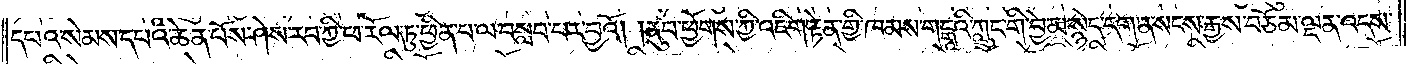དཔའ་སེམས་དཔའ་ཆེན་པོས་ཤེས་རབ་ཀྱི་ཕ་རོལ་ཏུ་ཕྱིན་པ་ལ་བསླབ་པར་བྱའོ། །ནུབ་ཕྱོགས་ཀྱི་འཇིག་རྟེན་གྱི་ཁམས་གངྒཱའི་ཀླུང་གི་བྱེ་མ་སྙེད་དག་ན་སངས་རྒྱས་བཅོམ་ལྡན་འདས་
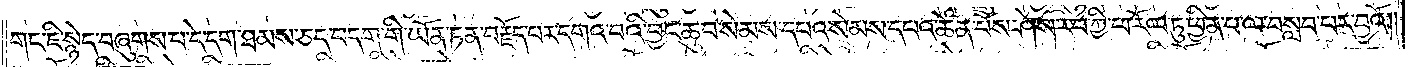གང་ཇི་སྙེད་བཞུགས་པ་དེ་དག་ཐམས་ཅད་བདག་གི་ཡོན་ཏན་བརྗོད་པར་དགའ་བའི་བྱང་ཆུབ་སེམས་དཔའ་སེམས་དཔའ་ཆེན་པོས་ཤེས་རབ་ཀྱི་ཕ་རོལ་ཏུ་ཕྱིན་པ་ལ་བསླབ་པར་བྱའོ། །
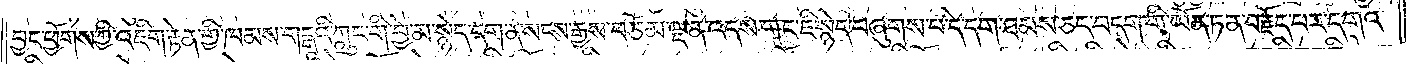བྱང་ཕྱོགས་ཀྱི་འཇིག་རྟེན་གྱི་ཁམས་གངྒཱའི་ཀླུང་གི་བྱེ་མ་སྙེད་དག་ན་སངས་རྒྱས་བཅོམ་ལྡན་འདས་གང་ཇི་སྙེད་བཞུགས་པ་དེ་དག་ཐམས་ཅད་བདག་གི་ཡོན་ཏན་བརྗོད་པར་དགའ་
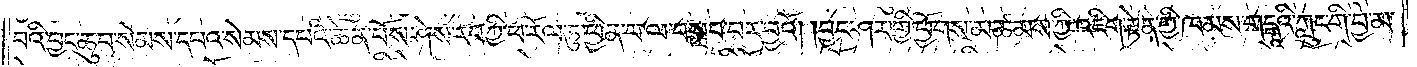བའི་བྱང་ཆུབ་སེམས་དཔའ་སེམས་དཔའ་ཆེན་པོས་ཤེས་རབ་ཀྱི་ཕ་རོལ་ཏུ་ཕྱིན་པ་ལ་བསླབ་པར་བྱའོ། །བྱང་ཤར་གྱི་ཕྱོགས་མཚམས་ཀྱི་འཇིག་རྟེན་གྱི་ཁམས་གངྒཱའི་ཀླུང་གི་བྱེ་མ་
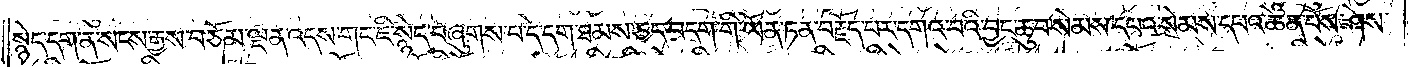སྙེད་དག་ན་སངས་རྒྱས་བཅོམ་ལྡན་འདས་གང་ཇི་སྙེད་བཞུགས་པ་དེ་དག་ཐམས་ཅད་བདག་གི་ཡོན་ཏན་བརྗོད་པར་དགའ་བའི་བྱང་ཆུབ་སེམས་དཔའ་སེམས་དཔའ་ཆེན་པོས་ཤེས་
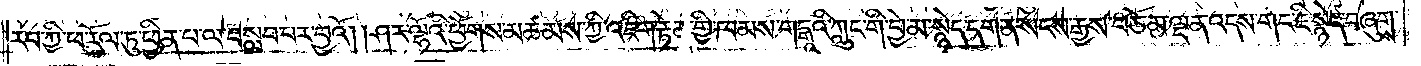རབ་ཀྱི་ཕ་རོལ་ཏུ་ཕྱིན་པ་ལ་བསླབ་པར་བྱའོ། །ཤར་ལྷོའི་ཕྱོགས་མཚམས་ཀྱི་འཇིག་རྟེན་གྱི་ཁམས་གངྒཱའི་ཀླུང་གི་བྱེ་མ་སྙེད་དག་ན་སངས་རྒྱས་བཅོམ་ལྡན་འདས་གང་ཇི་སྙེད་བཞུགས་
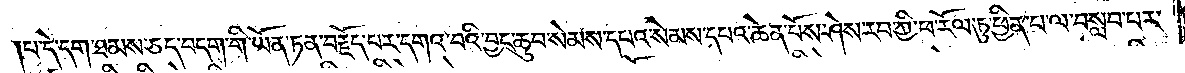པ་དེ་དག་ཐམས་ཅད་བདག་གི་ཡོན་ཏན་བརྗོད་པར་དགའ་བའི་བྱང་ཆུབ་སེམས་དཔའ་སེམས་དཔའ་ཆེན་པོས་ཤེས་རབ་ཀྱི་ཕ་རོལ་ཏུ་ཕྱིན་པ་ལ་བསླབ་པར་
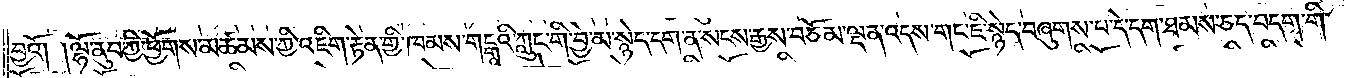བྱའོ། །ལྷོ་ནུབ་ཀྱི་ཕྱོགས་མཚམས་ཀྱི་འཇིག་རྟེན་གྱི་ཁམས་གངྒཱའི་ཀླུང་གི་བྱེ་མ་སྙེད་དག་ན་སངས་རྒྱས་བཅོམ་ལྡན་འདས་གང་ཇི་སྙེད་བཞུགས་པ་དེ་དག་ཐམས་ཅད་བདག་གི་
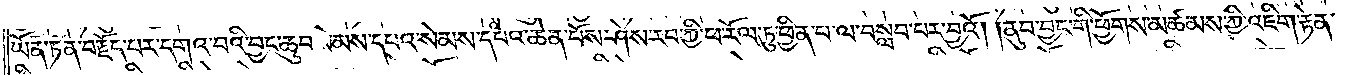ཡོན་ཏན་བརྗོད་པར་དགའ་བའི་བྱང་ཆུབ་སེམས་དཔའ་སེམས་དཔའ་ཆེན་པོས་ཤེས་རབ་ཀྱི་ཕ་རོལ་ཏུ་ཕྱིན་པ་ལ་བསླབ་པར་བྱའོ། །ནུབ་བྱང་གི་ཕྱོགས་མཚམས་ཀྱི་འཇིག་རྟེན་
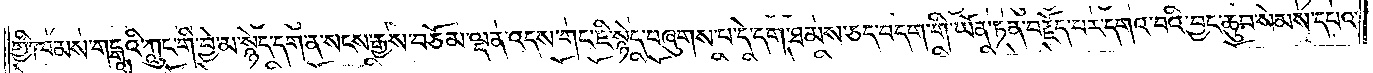གྱི་ཁམས་གངྒཱའི་ཀླུང་གི་བྱེ་མ་སྙེད་དག་ན་སངས་རྒྱས་བཅོམ་ལྡན་འདས་གང་ཇི་སྙེད་བཞུགས་པ་དེ་དག་ཐམས་ཅད་བདག་གི་ཡོན་ཏན་བརྗོད་པར་དགའ་བའི་བྱང་ཆུབ་སེམས་དཔའ་
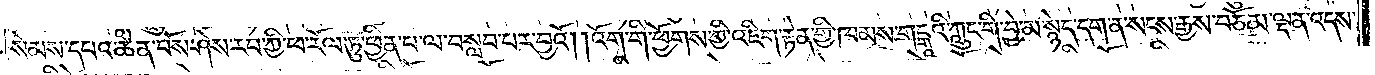སེམས་དཔའ་ཆེན་པོས་ཤེས་རབ་ཀྱི་ཕ་རོལ་ཏུ་ཕྱིན་པ་ལ་བསླབ་པར་བྱའོ། །འོག་གི་ཕྱོགས་ཀྱི་འཇིག་རྟེན་གྱི་ཁམས་གངྒཱའི་ཀླུང་གི་བྱེ་མ་སྙེད་དག་ན་སངས་རྒྱས་བཅོམ་ལྡན་འདས་
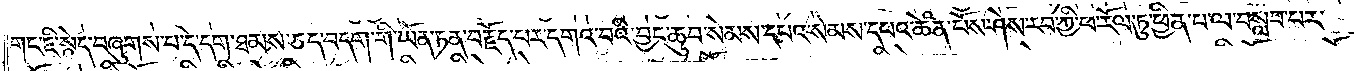གང་ཇི་སྙེད་བཞུགས་པ་དེ་དག་ཐམས་ཅད་བདག་གི་ཡོན་ཏན་བརྗོད་པར་དགའ་བའི་བྱང་ཆུབ་སེམས་དཔའ་སེམས་དཔའ་ཆེན་པོས་ཤེས་རབ་ཀྱི་ཕ་རོལ་ཏུ་ཕྱིན་པ་ལ་བསླབ་པར་
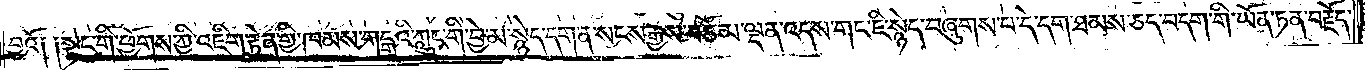བྱའོ༑ ༑སྟེང་གི་ཕྱོགས་ཀྱི་འཇིག་རྟེན་གྱི་ཁམས་གངྒཱའི་ཀླུང་གི་བྱེ་མ་སྙེད་དག་ན་སངས་རྒྱས་བཅོམ་ལྡན་འདས་གང་ཇི་སྙེད་བཞུགས་པ་དེ་དག་ཐམས་ཅད་བདག་གི་ཡོན་ཏན་བརྗོད་
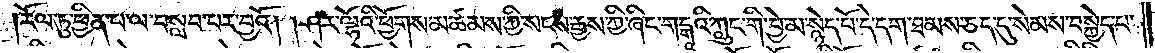རོལ་ཏུ་ཕྱིན་པ་ལ་བསླབ་པར་བྱའོ༎ ཤར་ལྷོའི་ཕྱོགས་མཚམས་ཀྱི་སངས་རྒྱས་ཀྱི་ཞིང་གངྒའི་ཀླུང་གི་བྱེ་མ་སྙེད་པོ་དེ་དག་ཐམས་ཅད་དུ་སེམས་བསྐྱེད་པ་
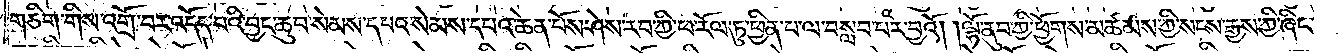གཅིག་གིས་འགྲོ་བར་འདོད་པའི་བྱང་ཆུབ་སེམས་དཔའ་སེམས་དཔའ་ཆེན་པོས་ཤེས་རབ་ཀྱི་ཕ་རོལ་ཏུ་ཕྱིན་པ་ལ་བསླབ་པར་བྱའོ༎  ལྷོ་ནུབ་ཀྱི་ཕྱོགས་མཚམས་ཀྱི་སངས་རྒྱས་ཀྱི་ཞིང་
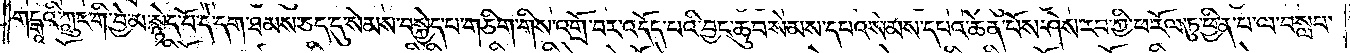གངྒཱའི་ཀླུང་གི་བྱེ་མ་སྙེད་པོ་དེ་དག་ཐམས་ཅད་དུ་སེམས་བསྐྱེད་པ་གཅིག་གིས་འགྲོ་བར་འདོད་པའི་བྱང་ཆུབ་སེམས་དཔའ་སེམས་དཔའ་ཆེན་པོས་ཤེས་རབ་ཀྱི་ཕ་རོལ་ཏུ་ཕྱིན་པ་ལ་བསླབ་
